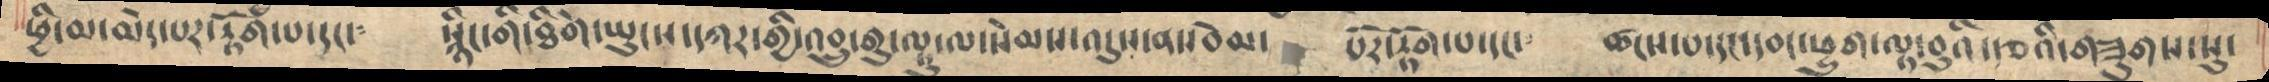ཕྱི་མ་མེད་པར་རྟོག་པ་དང་༴        སྙིང་གི་ཐིགེ་ཡུངས་དཀར་གྱི་འབྲུ་གུ་ལྟུ་ལ་སེམས་འདུས་ནད་བེམ་ པོར་རྟོག་པ་དང་༴     ཚངས་པ་དང་དབང་ཕྱུག་ལྟ་བུའི་རྩའི་གཟུགས་སུ་
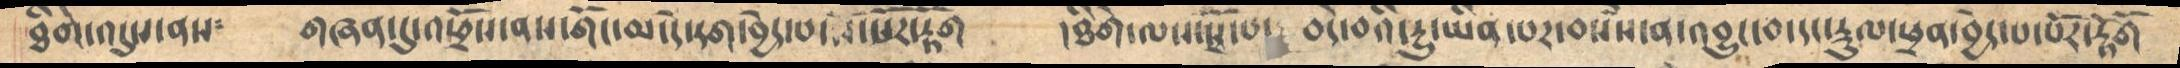ཐིགེ་འདུས་ནས༴       གཞན་དུ་འཕྲོས་ནས་གོང་མ་དེ་དག་བྱེད་པ་སོ་སོར་རྟོག       །ཐིགེ་ལས་སྭོ་པ་  བདེ་བའི་དྱུ་ཡིན་པར་བསཾས་ན་འབྱུང་བ་དང་རྡུལ་ཕྲན་བྱེད་པ་པོར་རྟོགོ
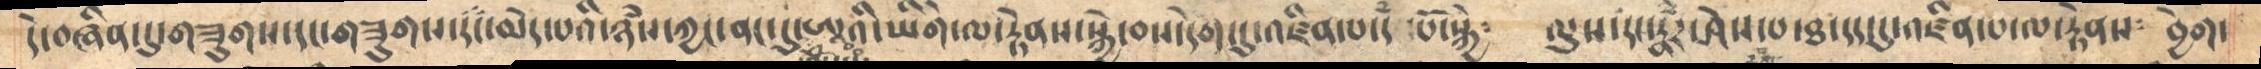དེ་བཞིན་དུ་གཟུགས་དང་གཟུགས་རང་མེད་པའི་ཉཾས་ཀྱང་ནང་དུ་ཨའི་ཡིགེ་ལ་རྟེནས་སྐྱེ་བས་དེག་དུ་འཛིན་པ་དཾ་པོ་སྐྱེ༴     ལུས་དང་རྣཾར་ཤེས་པ་ཐ་དད་དུ་འཛིན་པ་ལ་རྟེནས༴  བྱེག་
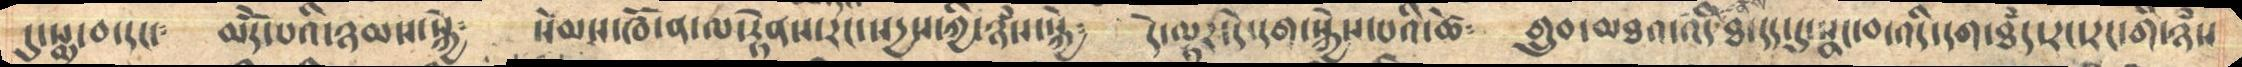དུ་སྨྲ་བ་དང་༴    མདོེ་པའི་ཉམས་སྐྱེ༴   སེམས་ཁོ་ན་ལ་རྟེནས་རང་སདྱས་ཀྱི་ཉཾས་སྐྱེ༴    དེ་ལྟར་དེ་དག་སྐྱེས་པའི་ཚེ༴   གྲུབ་མཐའ་འདི་ཐ་དད་དུ་སྣང་བ་འདི་དག་ཐཾད་རང་རང་གི་ཉཾས
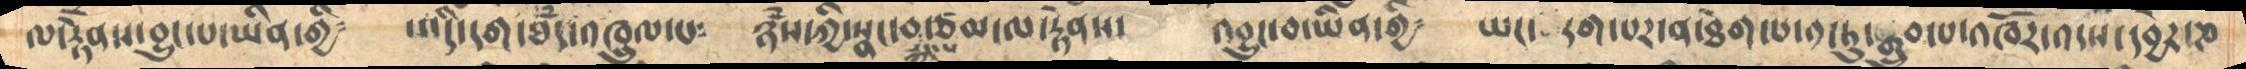ལ་རྟེནས་བྱུང་པ་ཡིན་གྱི༴    ས་འདི་དག་ཐཾད་འཁྲུལ་པ༴    ཉཾས་ཀྱི་སྣང་བ་ཙམ་ལ་རྟེནས་    འབྱུང་བ་ཡིན་གྱི༴     ཡང་དག་པར་ན་ཐེག་པ་༡་ཏུ་སྒྲུབ་པ་འཁོར་འདས་དབྱེར་ཎ
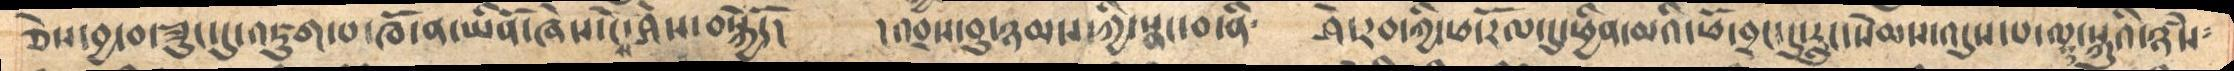ཅེས་བྱ་བ་ཟུང་དུ་འཇུག་པ་ཁོ་ན་ཡིནོ་ཞེས་ངེས་ཤེས་བསྐྱེདོ།   །འབྲས་བུ་ཉམས་ཀྱི་སྣང་བ་ནི་   ཤེ་རབ་ཀྱི་ཕ་རོལ་དུ་ཕྱིན་མའི་ཕོ་བྲང་དུ་རླུང་སེམས་འདུས་པ་ལ་སྐུའི་ཉཾས༴
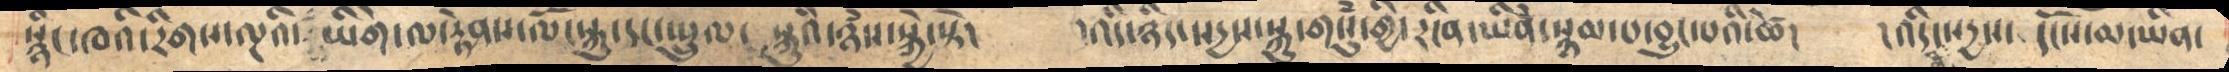སྙིང་ཁའི་རིགས་ལྔའི་ཡིགེ་ལ་རྟེནས་ལོངསྐུ་དང་སྤྲུལ་སྐུའི་ཉཾས་སྐྱེ་སྟེ།     །འདི་ཉིད་སདྱས་སྐུ་གསུཾ་གྱི་རངིན་ཡིནཾ་སྙམ་པ་བྱུང་པའི་ཚེ།   །འདི་སདྱས་དངོས་མ་ཡིན་
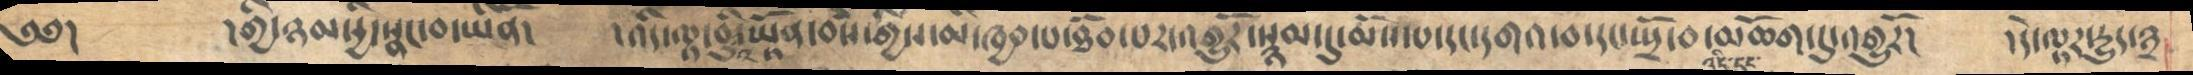༄༅།       །གྱི་ཉམསྱི་སྣང་བ་ཡིནོ།   །འདི་ལྟ་བུའི་ཡྟོན་བསཾ་གྱིས་མི་ཁྱབ་པ་ཐོབ་པར་འགྱུརོ་སྙམ་དུ་མོས་པ་དང་དགའ་བ་དང་སྤྲོ་བ་འདི་དང་མཆོག་དུ་འགྱུརོ།   །དེ་ལྟར་དྱུད་༣
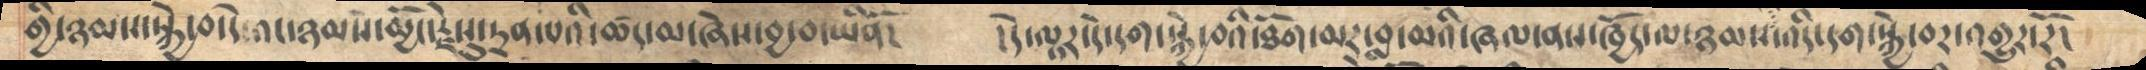གྱི་ཉམས་སྐྱེ་བ་དེ་འང་ཉམས་མྱོང་རྗེསུ་དྲན་པའི་ཚད་མ་ཞེས་བྱ་བ་ཡིནོ།    །དེ་ལྟར་དེ་དག་སྐྱེ་བའི་ཐོག་མར་བླ་མའི་ཞལ་ནས་ཁྱོད་ལ་ཉམས་འདི་དག་སྐྱེ་བར་འགྱུར་རོ།
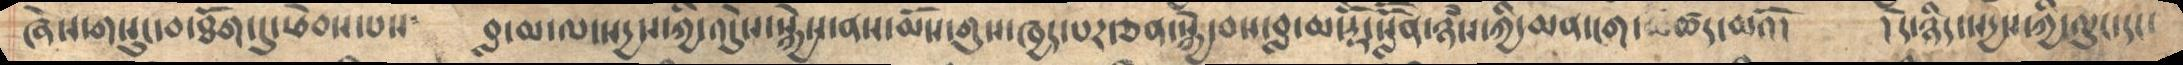ཞེས་གསུང་བ་ཐོག་དུ་ཕེབས་པས༴     བླ་མ་ལ་སདྱས་ཀྱི་འདེུས་སྐྱེས་ནས་མོས་གུས་ཁྱད་པར་ཅན་སྐྱེ་བས་བླ་མ་རྡོེ་སློོན་ཉཾས་ཀྱི་མན་ངག་ཚད་མའོ།    །དེ་ཉིད་སདྱས་ཀྱི་ལུང་དང་
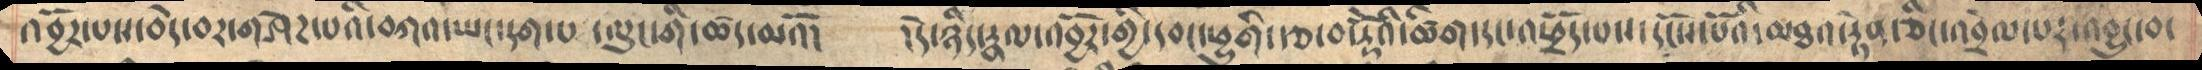འབྱོར་པས་བདེ་བར་གཤེཌ་པའི་བཀའ་ཡང་དག་པ་ལུང་གི་ཚད་མའོ།    །དེ་ཉིད་རྣལ་འབྱོར་གྱི་དབང་ཕྱུགི་རྩ་བ་རྡོེའི་ཚིག་དང་འཕྲོད་པས་དངོས་པོའི་མཐའ་རྟེན་ཅིང་འབྲེལ་པར་འབྱུང་བ་
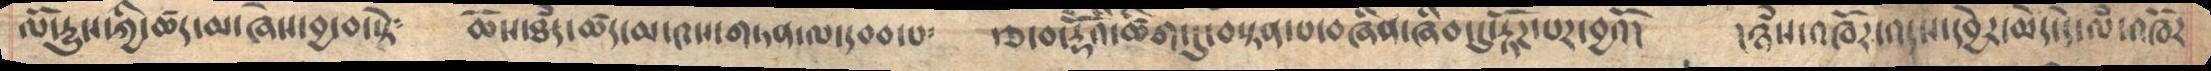ལོ་དྱུས་ཀྱི་ཚད་མ་ཞེས་བྱ་བ་སྟེ༴     ཆོས་ཐཾད་ཚད་མ་༤ས་གཏན་ལ་དབབ་པ༴     རྩ་བ་རྡོེའི་ཚིག་དུ་བསྟན་པ་བཞིན་ཞིབ་དུ་རྟོཌ་པར་བྱའོ།       །ཉཾས་འཁོར་འདས་དབྱེར་མེད་དེ་ལཾ་འཁོར
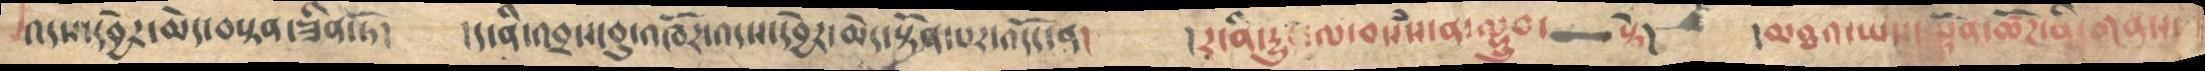འདས་དབྱེར་མེད་བསྟན་ཟིན་ཏོ།     །ད་ནི་འབྲས་བུ་འཁོར་འདས་དབྱེར་མེད་སྟོན་པར་འདོད་ན།     །རངིན་དྱུ ་ལ་བསཾས་ན་ལྷྲུབ་ སྟེ།     །མཐའ་ཡས་ཡྟོན་ཚོཌ་ནི་གནས་
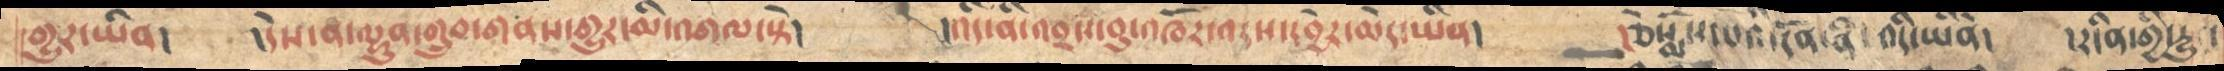གྱུར་ཡིན།      །དེས་ན་ལྷུན་གྲུབ་གནས་གྱུར་མི་འགལ་སྟེ།      །འདི་ནི་འབྲས་བུ་འཁོར་འདས་དབྱེར་མེད་ཡིན།     ཅེསྨོས་པའི་དོན་ནི་འདི་ཡིནེ།   །རངིན་གྱི་དྱུ་
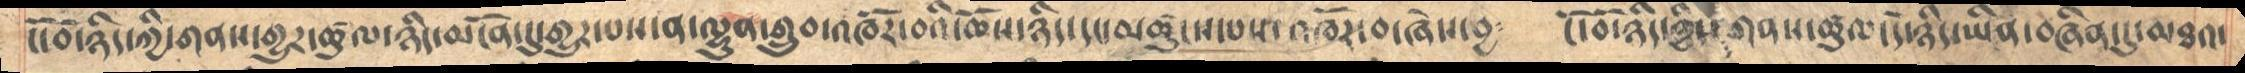ངོ་བོ་ཉིད་ཀྱི་གནས་གྱུར་ཚུལ་ཉིད་མངོན་དུ་གྱུར་པས་ན་ལྷུན་གྱུབ་འཁོར་བའི་ཆོས་ཉིད་དང་མཚུངས་པས་འཁོར་བ་ཞེས་བྱ༴   ངོ་བོ་ཉིད་ཀྱིས་གནས་ཚུལ་དེ་ཉིད་ཡིན་བཞིན་དུ་མཐའ་
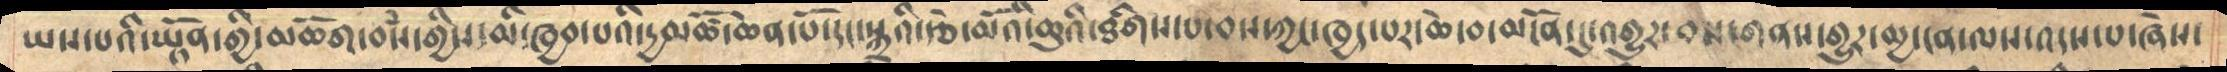ཡས་པའི་ཡྟོན་གྱི་མཆོག་བསཾ་གྱིས་མི་ཁྱབ་པའི་དྱམཚོ་ཆེན་པོ་དང་སྐྲའི་རྩེ་མོའི་ཆུའི་ཐིགས་པ་བས་ཀྱང་ཁྱད་པར་ཆེ་བ་མངོན་དུ་འགྱུར་བས་གནས་གྱུར་མྱ་ངན་ལས་འདས་པ་ཞེས་
